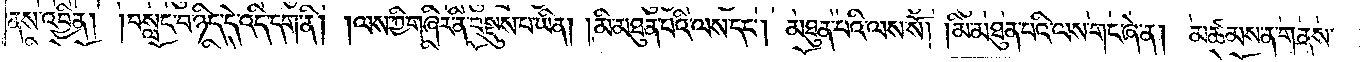ནས་འབྱིན། །བསླང་བ་ཉིད་དེ་འདི་དག་ནི། །ལས་ཀྱི་གཞིར་ནི་བསྡུས་པ་ཡིན། །མི་མཐུན་པའི་ལས་དང༌། མཐུན་པའི་ལས་སོ། །མི་མཐུན་པའི་ལས་གང་ཞེ་ན། མཚམས་ན་གནས་
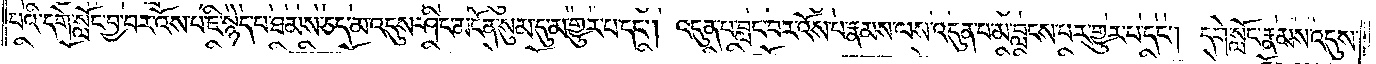པའི་དགེ་སློང་བྱ་བར་འོས་པ་ཇི་སྙེད་པ་ཐམས་ཅད་མ་འདུས་ཤིང་མངོན་སུམ་དུ་མ་གྱུར་པ་དང༌། འདུན་པ་བླང་བར་འོས་པ་རྣམས་ལས་འདུན་པ་མ་བླངས་པར་གྱུར་པ་དང༌། དགེ་སློང་རྣམས་འདུས་
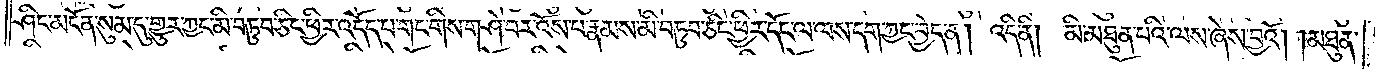ཤིང་མངོན་སུམ་དུ་གྱུར་ཀྱང་མི་བཏུབ་ཅིང་ཕྱིར་འདོད་པ་གང་གིས་གཤེ་བར་འོས་པ་རྣམས་མི་བཏུབ་ཅིང་ཕྱིར་དོང་ལ་ལས་དག་ཀྱང་བྱེད་ན། འདི་ནི། མི་མཐུན་པའི་ལས་ཞེས་བྱའོ། །མཐུན་
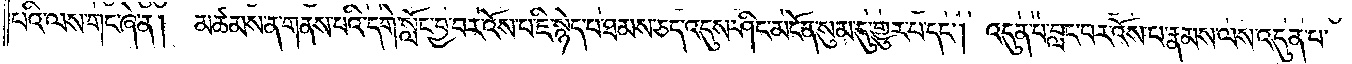པའི་ལས་གང་ཞེ་ན། མཚམས་ན་གནས་པའི་དགེ་སློང་བྱ་བར་འོས་པ་ཇི་སྙེད་པ་ཐམས་ཅད་འདུས་ཤིང་མངོན་སུམ་དུ་གྱུར་པ་དང༌། འདུན་པ་བླང་བར་འོས་པ་རྣམས་ལས་འདུན་པ་
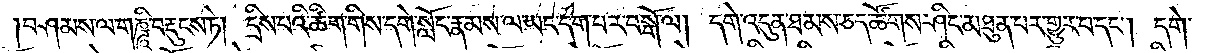བཤམས་ལ་གཎྜཱི་བརྡུངས་ཏེ། དྲིས་པའི་ཚིག་གིས་དགེ་སློང་རྣམས་ལ་ཡང་དག་པར་བསྒོ་ལ། དགེ་འདུན་ཐམས་ཅད་ཚོགས་ཤིང་མཐུན་པར་གྱུར་པ་དང༌། དགེ་
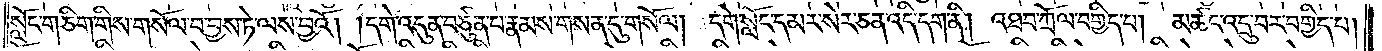སློང་གཅིག་གིས་གསོལ་བ་བྱས་ཏེ་ལས་བྱའོ། །དགེ་འདུན་བཙུན་པ་རྣམས་གསན་དུ་གསོལ། །དགེ་སློང་དམར་སེར་ཅན་འདི་དག་ནི། འཐབ་ཀྲོལ་བགྱིད་པ། མཚང་འདྲུ་བར་བགྱིད་པ།
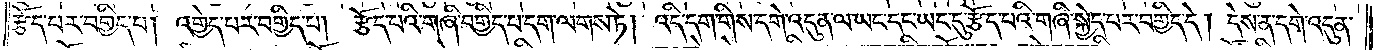རྩོད་པར་བགྱིད་པ། འགྱེད་པར་བགྱིད་པ། རྩོད་པའི་གཞི་བགྱིད་པ་དག་ལགས་ཏེ། འདི་དག་གིས་དགེ་འདུན་ལ་ཡང་དང་ཡང་དུ་རྩོད་པའི་གཞི་སྐྱེད་པར་བགྱིད་དེ། དེས་ན་དགེ་འདུན་
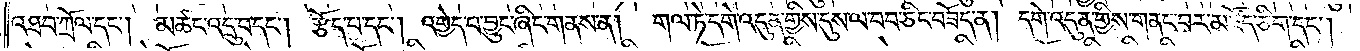འཐབ་ཀྲོལ་དང༌། མཚང་འདྲུ་བ་དང༌། རྩོད་པ་དང༌། འགྱེད་པ་བྱུང་ཞིང་གནས་ན། གལ་ཏེ་དགེ་འདུན་གྱིས་དུས་ལ་བབ་ཅིང་བཟོད་ན། དགེ་འདུན་གྱིས་གནང་བར་མཛོད་ཅིག་དང༌།
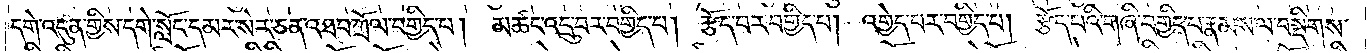དགེ་འདུན་གྱིས་དགེ་སློང་དམར་སེར་ཅན་འཐབ་ཀྲོལ་བགྱིད་པ། མཚང་འདྲུ་བར་བགྱིད་པ། རྩོད་པར་བགྱིད་པ། འགྱེད་པར་བགྱིད་པ། །རྩོད་པའི་གཞི་བགྱིད་པ་རྣམས་ལ་བསྡིགས་
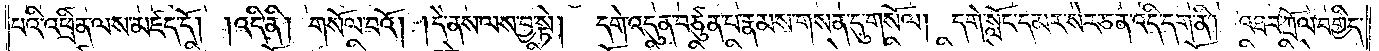པའི་འཕྲིན་ལས་མཛད་དོ། །འདི་ནི། གསོལ་བའོ། །དེ་ནས་ལས་བྱ་སྟེ། དགེ་འདུན་བཙུན་པ་རྣམས་གསན་དུ་གསོལ། །དགེ་སློང་དམར་སེར་ཅན་འདི་དག་ནི། འཐབ་ཀྲོལ་བགྱིད་
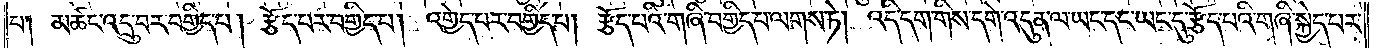པ༑ མཚང་འདྲུ་བར་བགྱིད་པ། རྩོད་པར་བགྱིད་པ། འགྱེད་པར་བགྱིད་པ། རྩོད་པའི་གཞི་བགྱིད་པ་ལགས་ཏེ། འདི་དག་གིས་དགེ་འདུན་ལ་ཡང་དང་ཡང་དུ་རྩོད་པའི་གཞི་སྐྱེད་པར་
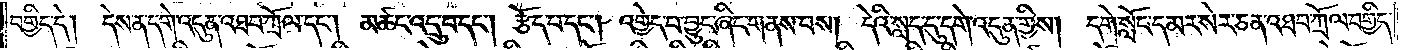བགྱིད་དེ། དེས་ན་དགེ་འདུན་འཐབ་ཀྲོལ་དང༌། མཚང་འདྲུ་བ་དང༌། རྩོད་པ་དང༌། འགྱེད་པ་བྱུང་ཞིང་གནས་པས། དེའི་སླད་དུ་དགེ་འདུན་གྱིས། དགེ་སློང་དམར་སེར་ཅན་འཐབ་ཀྲོལ་བགྱིད་
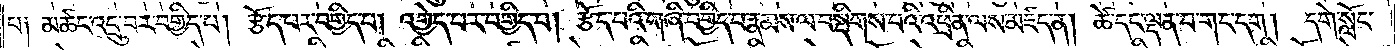པ༑ མཚང་འདྲུ་བ་བགྱིད་པ། །རྩོད་པར་བགྱིད་པ། འགྱེད་པར་བགྱིད་པ། རྩོད་པའི་གཞི་བགྱིད་པ་རྣམས་ལ་བསྡིགས་པའི་འཕྲིན་ལས་མཛད་ན། ཚེ་དང་ལྡན་པ་གང་དག །དགེ་སློང་
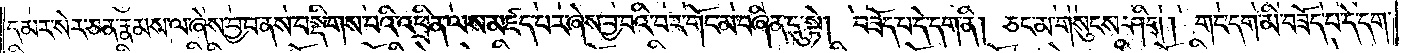དམར་སེར་ཅན་རྣམས་ལ་ཞེས་བྱ་བ་ནས་བསྡིགས་པའི་འཕྲིན་ལས་མཛད་པར་ཞེས་བྱ་བའི་བར་གོང་མ་བཞིན་དུ་སྟེ། བཟོད་པ་དེ་དག་ནི། ཅང་མ་གསུངས་ཤིག །གང་དག་མི་བཟོད་པ་དེ་དག་
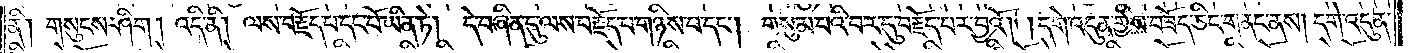ནི། གསུངས་ཤིག །འདི་ནི། ལས་བརྗོད་པ་དང་པོ་ཡིན་ཏེ། དེ་བཞིན་དུ་ལས་བརྗོད་པ་གཉིས་པ་དང༌། གསུམ་པའི་བར་དུ་བརྗོད་པར་བྱའོ། །དགེ་འདུན་གྱིས་བཟོད་ཅིང་གནང་ནས། །དགེ་འདུན་
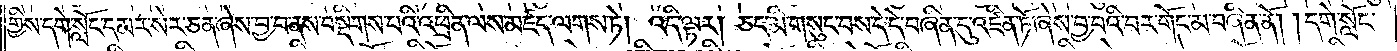གྱིས་དགེ་སློང་དམར་སེར་ཅན་ཞེས་བྱ་བ་ནས་བསྡིགས་པའི་འཕྲིན་ལས་མཛད་ལགས་ཏེ། འདི་ལྟར། ཅང་མི་གསུང་བས་དེ་དེ་བཞིན་དུ་འཛིན་ཏོ་ཞེས་བྱ་བའི་བར་གོང་མ་བཞིན་ནོ། །དགེ་སློང་
